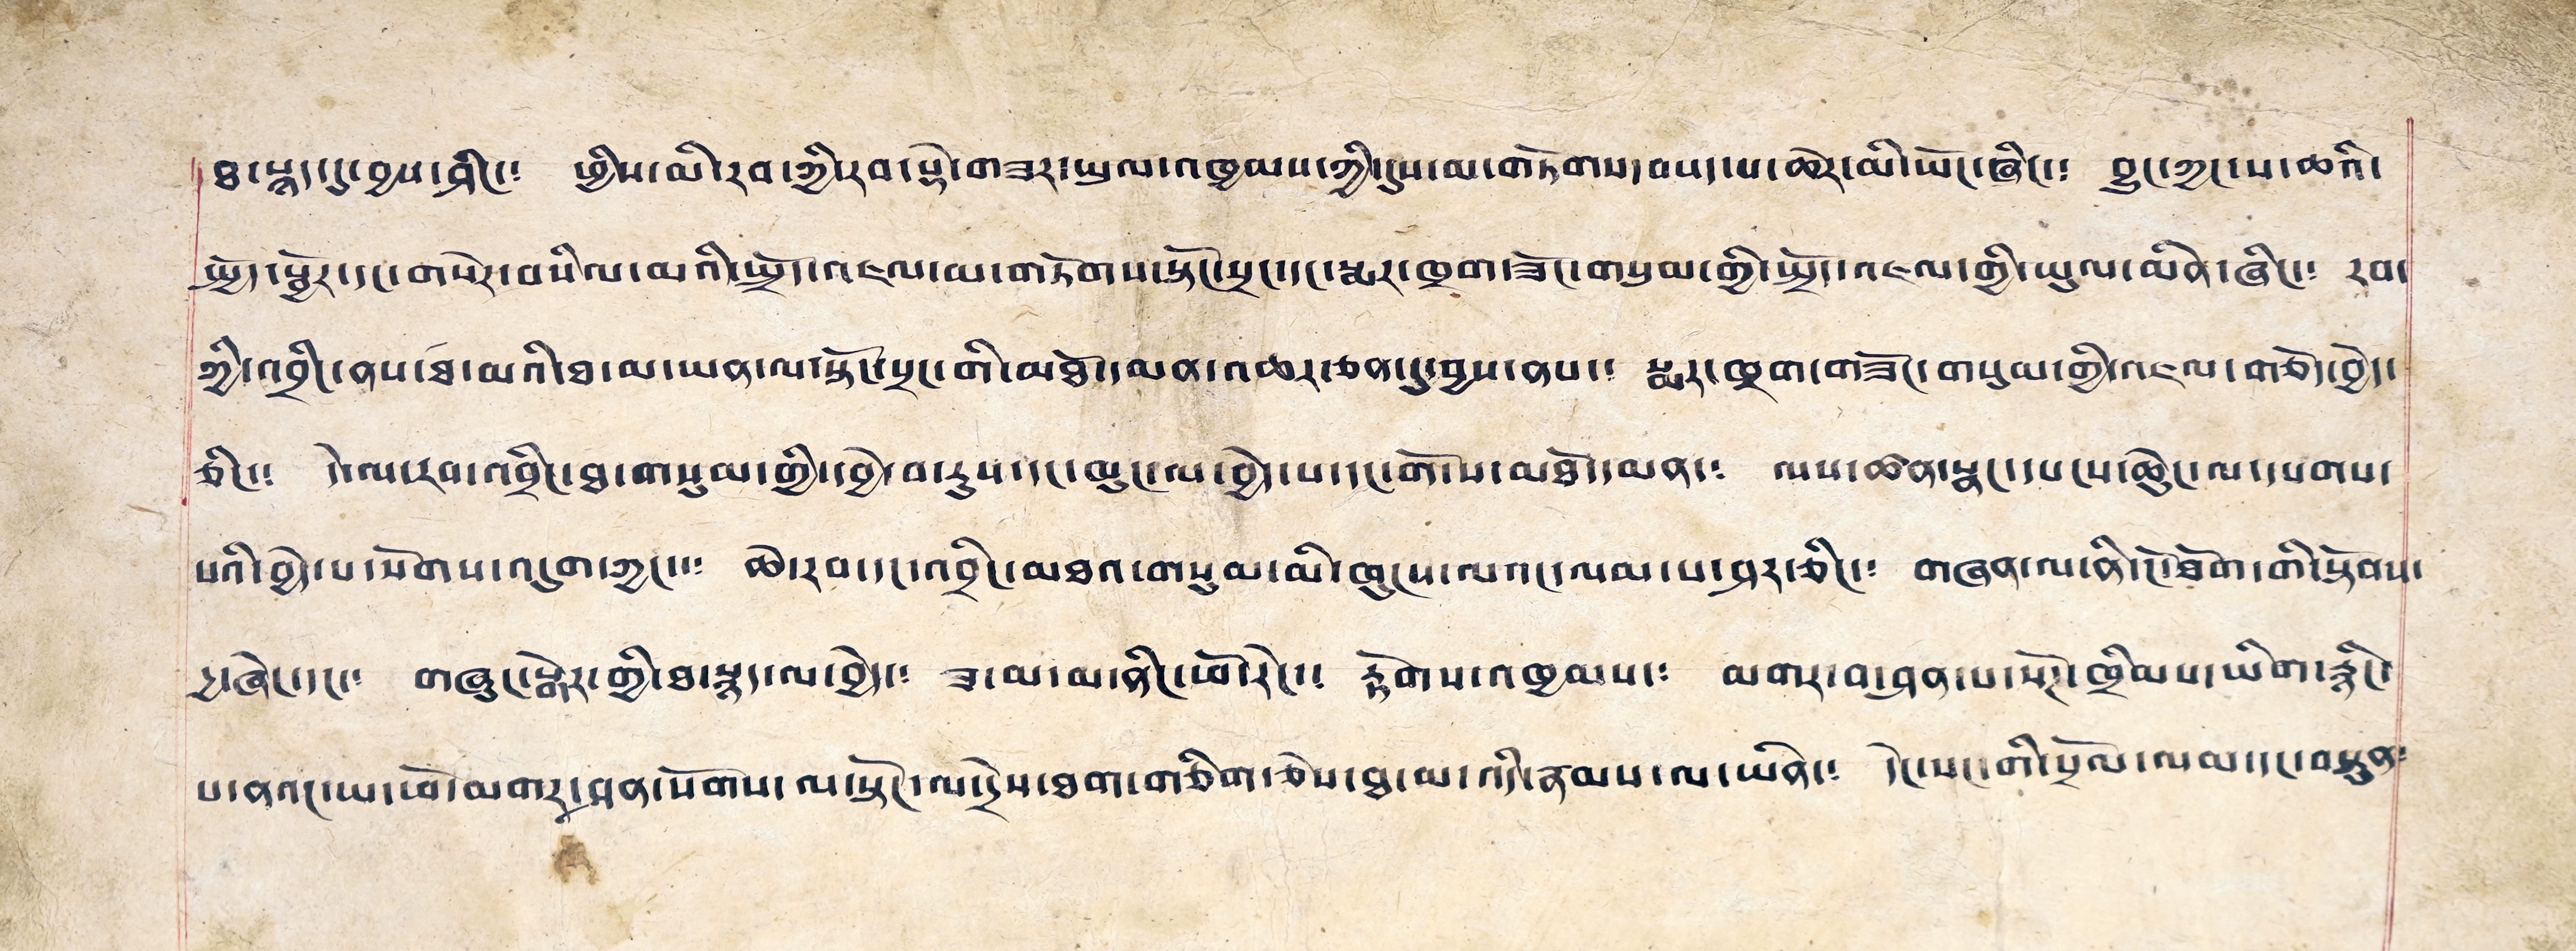ཐ་སྙད་དུ་བྱས་ཤིང་༴ ཕྱིས་མི་རབ་ཀྱི་རབ་སྡེ་གཟར་ཡལ་འཁྱམས་ཀྱི་དུས་མ་གཏོགས་བསད་པ་ཆེར་མི་ཡོང་ཞིང་༴ བྱུང་ཀྱང་ས་ཆའི་
སྤྱོད་སྦྱོར་དང་གསེར་བསིལ་མའི་སྤྲོད་འཇལ་མ་གཏོགས་སྟོང་སྲང་དང་སྨར་ཁྲག་ཟོང་གསུམ་གྱི་སྤྲོད་འཇལ་གྱི་ཡུལ་མིན་ཞིང་༴ རབ་
ཀྱི་འབྲིང་ནས་ཐ་མའི་ཐ་མ་ཡན་ལ་སྟོང་སྲང་གི་མཐོ་དམན་འཆར་ཅན་དུ་བྱས་ནས་༴ སྨར་ཁྲག་གཟོང་གསུམ་གྱི་འཇལ་གཅོད་བྱེད་
ཅིང་༴ དེ་ལ་རབ་འབྲིང་ཐ་གསུམ་གྱི་དབྱེ་བ་རུས་དང་ཁུང་ལ་བྱེད་པ་དང་གོ་ས་མཐོ་དམན་༴ ལས་ཚན་སྣང་དཔངས་ཆེུང་ལ་དཔགས་
པའི་བྱེད་པ་སོགས་འདུག་ཀྱང་༴ ཆེ་རབ་དང་འབྲིང་མཐའ་གསུམ་མི་ཁུངས་ལའང་ལམ་པ་ཤར་ཅིང་༴ གཞན་ལ་ནི་ངོ་ཐོག་གི་སྟོབས་
དྱ་ཞེང་དང་༴ གཞང་སྒེར་གྱི་ཐ་སྙད་ལ་བྱེད་༴ ཟ་མ་མ་ནིང་ཕོ་རེང་༴ རྟོགས་འཁྱམས་༴ མགར་བ་ཤན་པ་སོཊ་ཁྲིམས་ཡིག་རྙིང་
པ་ནའང་ཡ་ཕོ་མགར་ཤན་སོགས་ལ་སྟོང་ལ་དྲེས་ཐག་གཅིག་ཅེས་ཐ་མ་འདི་ཉམས་ལ་ཡིན་༴ དེང་སང་གི་སྲོལ་ལམ་དང་བསྟུན༴
